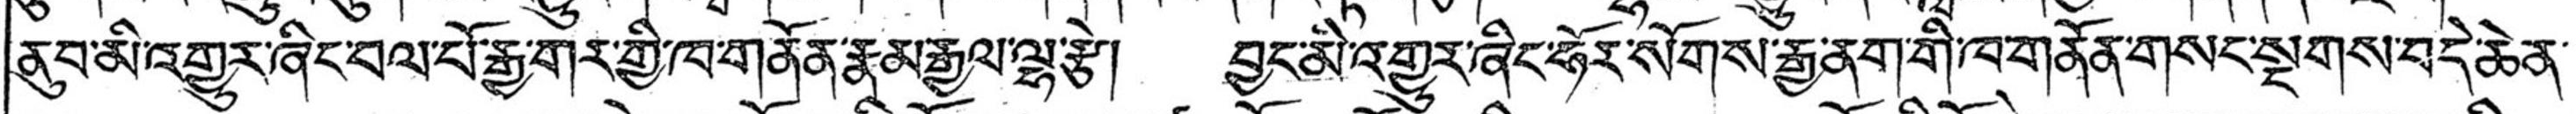ནུབ་མི་འགྱུར་ཞིང་བལ་པོ་རྒྱ་གར་གྱི་ཁ་གནོན་རྣམ་རྒྱལ་ལྷ་རྩེ། བྱང་མི་འགྱུར་ཞིང་ཧོར་སོགས་རྒྱ་ནག་གི་ཁ་གནོན་གསང་སྔགས་བདེ་ཆེན་་་
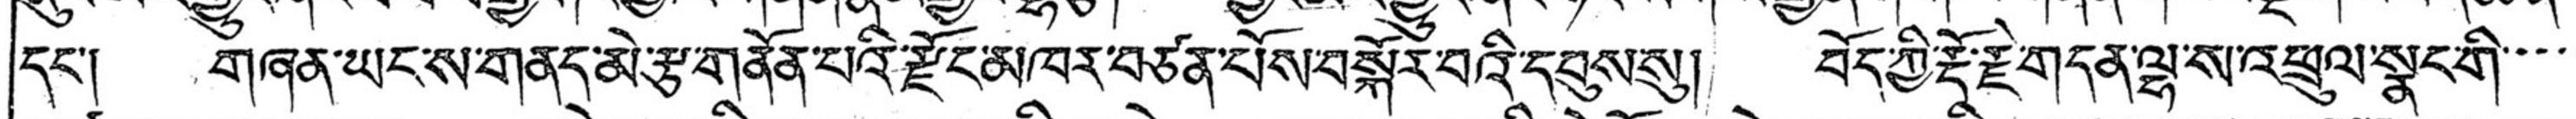དང་། གཞན་ཡང་ས་གནད་མེ་རྩ་གནོན་པའི་རྫོང་མཁར་བཙན་པོས་བསྐོར་བའི་དབུས་སུ། བོད་ཀྱི་རྡོ་རྗེ་གདན་ལྷ་ས་འཕྲུལ་སྣང་གི་་་་
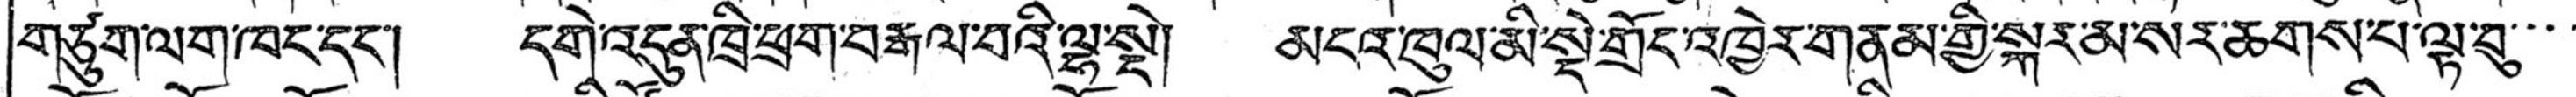གཙུག་ལག་ཁང་དང་། དགེ་འདུན་ཁྲི་ཕྲག་བརྒལ་བའི་ལྷ་སྡེ། མངའ་ཁུལ་མི་སྡེ་གྲོང་འཁྱེར་གནམ་གྱི་སྐར་མ་སར་ཆགས་པ་ལྟ་བུ་་་་
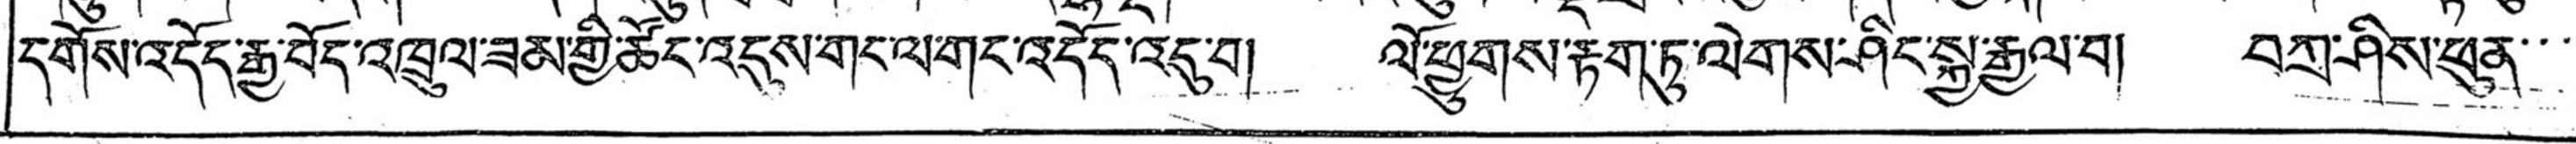དགོས་འདོད་རྒྱ་བོད་འཁྲུལ་ཟམ་གྱི་ཚོང་འདུས་གང་ལ་གང་འདོད་འདུ་བ། ལོ་ཕྱུགས་རྟག་ཏུ་ལེགས་ཤིང་སྐྱ་རྒྱལ་བ། བཀྲ་ཤིས་ཕུན་་་
